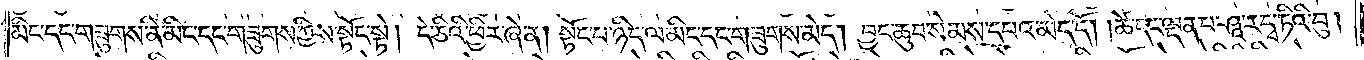མིང་དང་གཟུགས་ནི་མིང་དང་གཟུགས་ཀྱིས་སྟོང་སྟེ། དེ་ཅིའི་ཕྱིར་ཞེ་ན། སྟོང་པ་ཉིད་ལ་མིང་དང་གཟུགས་མེད། བྱང་ཆུབ་སེམས་དཔའ་མེད་དོ། །ཚེ་དང་ལྡན་པ་ཤཱ་ར་དྭ་ཏིའི་བུ།
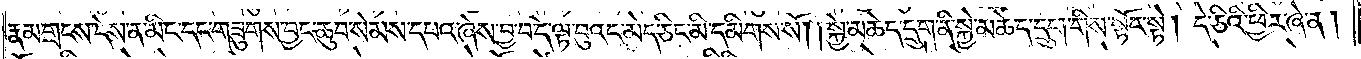རྣམ་གྲངས་དེས་ན་མིང་དང་གཟུགས་བྱང་ཆུབ་སེམས་དཔའ་ཞེས་བྱ་བ་དེ་ལྟ་བུའང་མེད་ཅིང་མི་དམིགས་སོ། །སྐྱེ་མཆེད་དྲུག་ནི་སྐྱེ་མཆེད་དྲུག་གིས་སྟོང་སྟེ། དེ་ཅིའི་ཕྱིར་ཞེ་ན།
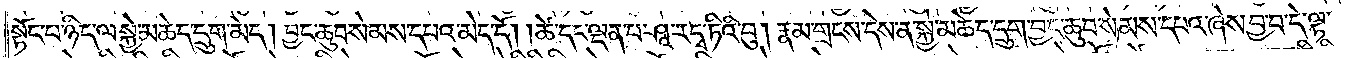སྟོང་པ་ཉིད་ལ་སྐྱེ་མཆེད་དྲུག་མེད། བྱང་ཆུབ་སེམས་དཔའ་མེད་དོ། །ཚེ་དང་ལྡན་པ་ཤཱ་ར་དྭ་ཏིའི་བུ། རྣམ་གྲངས་དེས་ན་སྐྱེ་མཆེད་དྲུག་བྱང་ཆུབ་སེམས་དཔའ་ཞེས་བྱ་བ་དེ་ལྟ་
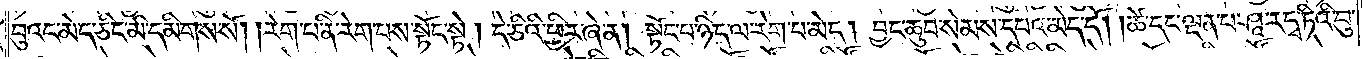བུའང་མེད་ཅིང་མི་དམིགས་སོ། །རེག་པ་ནི་རེག་པས་སྟོང་སྟེ། དེ་ཅིའི་ཕྱིར་ཞེ་ན། སྟོང་པ་ཉིད་ལ་རེག་པ་མེད། བྱང་ཆུབ་སེམས་དཔའ་མེད་དོ། །ཚེ་དང་ལྡན་པ་ཤཱ་ར་དྭ་ཏིའི་བུ་
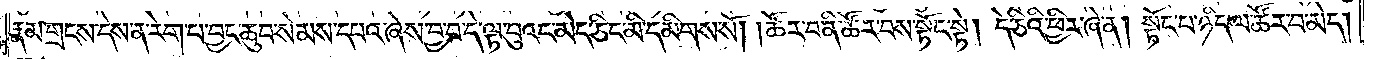རྣམ་གྲངས་དེས་ན་རེག་པ་བྱང་ཆུབ་སེམས་དཔའ་ཞེས་བྱ་བ་དེ་ལྟ་བུའང་མེད་ཅིང་མི་དམིགས་སོ། །ཚོར་བ་ནི་ཚོར་བས་སྟོང་སྟེ། དེ་ཅིའི་ཕྱིར་ཞེ་ན། སྟོང་པ་ཉིད་ལ་ཚོར་བ་མེད།
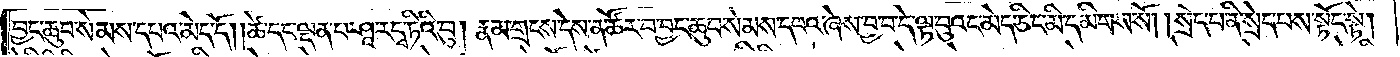བྱང་ཆུབ་སེམས་དཔའ་མེད་དོ། །ཚེ་དང་ལྡན་པ་ཤཱ་ར་དྭ་ཏིའི་བུ། རྣམ་གྲངས་དེས་ན་ཚོར་བ་བྱང་ཆུབ་སེམས་དཔའ་ཞེས་བྱ་བ་དེ་ལྟ་བུའང་མེད་ཅིང་མི་དམིགས་སོ། །སྲེད་པ་ནི་སྲེད་པས་སྟོང་སྟེ།
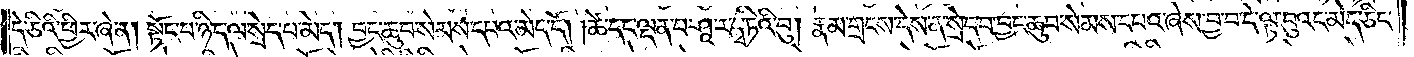དེ་ཅིའི་ཕྱིར་ཞེ་ན། སྟོང་པ་ཉིད་ལ་སྲེད་པ་མེད། བྱང་ཆུབ་སེམས་དཔའ་མེད་དོ། །ཚེ་དང་ལྡན་པ་ཤཱ་ར་དྭ་ཏིའི་བུ། རྣམ་གྲངས་དེས་ན་སྲེད་པ་བྱང་ཆུབ་སེམས་དཔའ་ཞེས་བྱ་བ་དེ་ལྟ་བུའང་མེད་ཅིང་
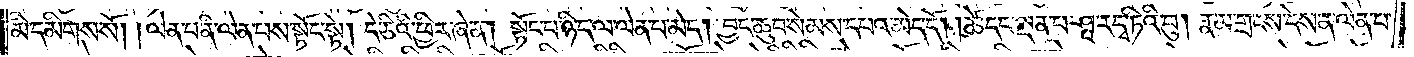མི་དམིགས་སོ། །ལེན་པ་ནི་ལེན་པས་སྟོང་སྟེ། དེ་ཅིའི་ཕྱིར་ཞེ་ན། སྟོང་པ་ཉིད་ལ་ལེན་པ་མེད། བྱང་ཆུབ་སེམས་དཔའ་མེད་དོ། །ཚེ་དང་ལྡན་པ་ཤཱ་ར་དྭ་ཏིའི་བུ། རྣམ་གྲངས་དེས་ན་ལེན་པ་
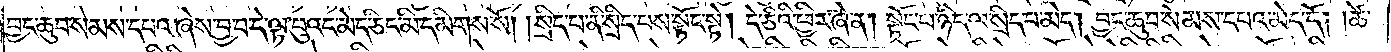བྱང་ཆུབ་སེམས་དཔའ་ཞེས་བྱ་བ་དེ་ལྟ་བུའང་མེད་ཅིང་མི་དམིགས་སོ། །སྲིད་པ་ནི་སྲིད་པས་སྟོང་སྟེ། དེ་ཅིའི་ཕྱིར་ཞེ་ན། སྟོང་པ་ཉིད་ལ་སྲིད་པ་མེད། བྱང་ཆུབ་སེམས་དཔའ་མེད་དོ། །ཚེ་
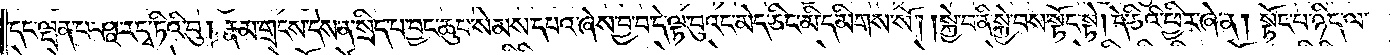དང་ལྡན་པ་ཤཱ་ར་དྭ་ཏིའི་བུ། རྣམ་གྲངས་དེས་ན་སྲིད་པ་བྱང་ཆུབ་སེམས་དཔའ་ཞེས་བྱ་བ་དེ་ལྟ་བུའང་མེད་ཅིང་མི་དམིགས་སོ། །སྐྱེ་བ་ནི་སྐྱེ་བས་སྟོང་སྟེ། དེ་ཅིའི་ཕྱིར་ཞེ་ན། སྟོང་པ་ཉིད་ལ་
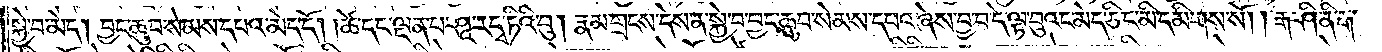སྐྱེ་བ་མེད། བྱང་ཆུབ་སེམས་དཔའ་མེད་དོ། །ཚེ་དང་ལྡན་པ་ཤཱ་ར་དྭ་ཏིའི་བུ། རྣམ་གྲངས་དེས་ན་སྐྱེ་བ་བྱང་ཆུབ་སེམས་དཔའ་ཞེས་བྱ་བ་དེ་ལྟ་བུའང་མེད་ཅིང་མི་དམིགས་སོ། །རྒ་ཤི་ནི་རྒ་
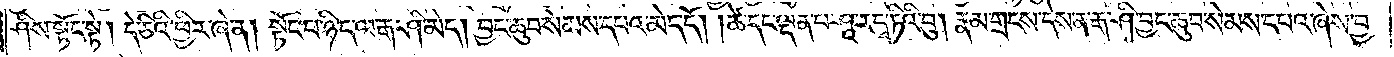ཤིས་སྟེང་སྟེ། དེ་ཅིའི་ཕྱིར་ཞེ་ན། སྟོང་པ་ཉིད་ལ་རྒ་ཤི་མེད། བྱང་ཆུབ་སེམས་དཔའ་མེད་དོ། །ཚེ་དང་ལྡན་པ་ཤཱ་ར་དྭ་ཏིའི་བུ། རྣམ་གྲངས་དེས་ན་རྒ་ཤི་བྱང་ཆུབ་སེམས་དཔའ་ཞེས་བྱ་
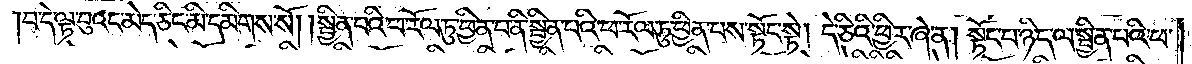བ་དེ་ལྟ་བུའང་མེད་ཅིང་མི་དམིགས་སོ། །སྦྱིན་པའི་ཕ་རོལ་ཏུ་ཕྱིན་པ་ནི་སྦྱིན་པའི་ཕ་རོལ་ཏུ་ཕྱིན་པས་སྟོང་སྟེ། དེ་ཅིའི་ཕྱིར་ཞེ་ན། སྟོང་པ་ཉིད་ལ་སྦྱིན་པའི་ཕ་
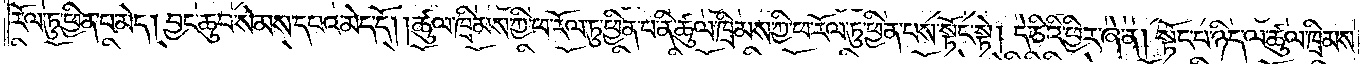རོལ་ཏུ་ཕྱིན་པ་མེད། བྱང་ཆུབ་སེམས་དཔའ་མེད་དོ། །ཚུལ་ཁྲིམས་ཀྱི་ཕ་རོལ་ཏུ་ཕྱིན་པ་ནི་ཚུལ་ཁྲིམས་ཀྱི་ཕ་རོལ་ཏུ་ཕྱིན་པས་སྟོང་སྟེ། དེ་ཅིའི་ཕྱིར་ཞེ་ན། སྟོང་པ་ཉིད་ལ་ཚུལ་ཁྲིམས་
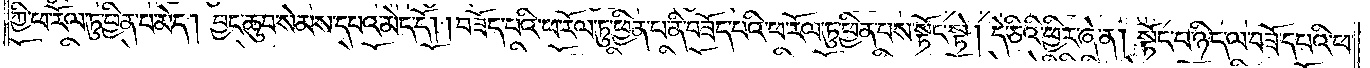ཀྱི་ཕ་རོལ་ཏུ་ཕྱིན་པ་མེད། བྱང་ཆུབ་སེམས་དཔའ་མེད་དོ། །བཟོད་པའི་ཕ་རོལ་ཏུ་ཕྱིན་པ་ནི་བཟོད་པའི་ཕ་རོལ་ཏུ་ཕྱིན་པས་སྟོང་སྟེ། དེ་ཅིའི་ཕྱིར་ཞེ་ན། སྟོང་པ་ཉིད་ལ་བཟོད་པའི་ཕ་
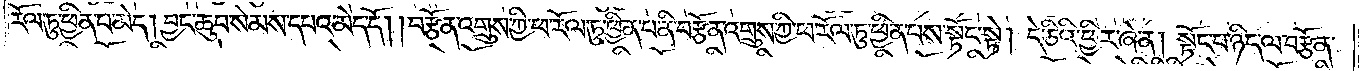རོལ་ཏུ་ཕྱིན་པ་མེད། བྱང་ཆུབ་སེམས་དཔའ་མེད་དོ། །བརྩོན་འགྲུས་ཀྱི་ཕ་རོལ་ཏུ་ཕྱིན་པ་ནི་བརྩོན་འགྲུས་ཀྱི་ཕ་རོལ་ཏུ་ཕྱིན་པས་སྟོང་སྟེ། །དེ་ཅིའི་ཕྱིར་ཞེ་ན། སྟོང་པ་ཉིད་ལ་བརྩོན་
